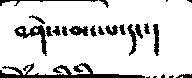བཤེས་མང་པ་དང་།
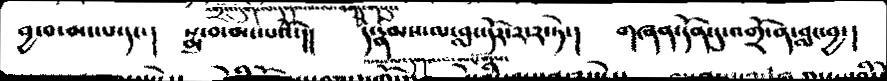བྱ་བ་མང་པ་དང་།  སྨྲ་བ་མང་པའོ་།།  དེ་རྣམས་ལ་བླང་དོར་༢་༢་ཏེ་།   གཞན་དོན་དུ་འགྲོ་ན་བླང་བྱ་།
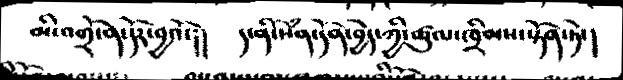མི་འགྲོ་ན་དོར་བྱའོ་།།  ད་ནེ་སེཾན་དོན་བྱེད་ཀྱི་ཚུལ་ཁྲིམས་སྟོན་ཏེ་།
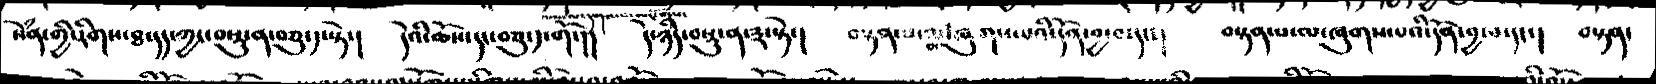སེཾན་གྱི་རིགས་ཐ་དད་ཀྱང་བསྡུ་ན་བཅུ་༡་སྟེ་།   དེའི་ཆོས་དང་བཅུ་༡་གོ་།།   དེ་ཉིད་བསྡུ་ན་༣་སྟེ་།  བསྟན་པ་ལ་ཞུགས་པའི་དོན་བྱ་བ་དང་།  བསྟན་པ་ལ་ཞུགས་པའི་དོན་བྱ་བ་དང་།  བསྟན་
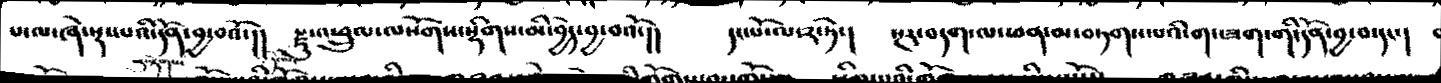པ་ལ་ཞེ་སྡང་པའི་དོན་བྱ་བའོ་།།  རྫུ་འཕྲུལ་ལསོགས་སྡིགས་མི་བྱེད་བྱ་བའོ་།།  དང་པོ་ལ་༢་ཏེ་།  སྔར་བདག་ལ་ཕན་མ་བཏགས་པའི་གང་ཟག་གི་དོན་བྱ་བ་དང་།
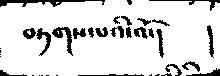བཏགས་པའི་འོ་།     །
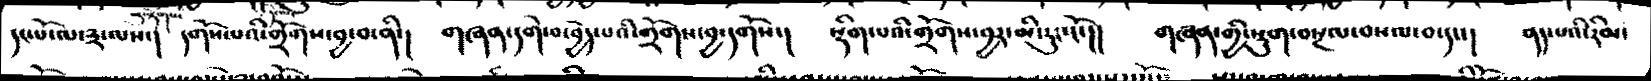དང་པོ་ལ་༣་ལས་།  དགོས་པའི་གྲོགས་བྱ་བ་ནི་།  གཞན་དགེ་་བ་བྱེད་པའི་གྲོགས་བྱ་དགོས་།  སྡིག་པའི་གྲོགས་བྱར་མི་རུང་ངོ་།།  གཞན་གྱི་སྡུག་བསྔལ་བསལ་བ་དང་།  ནད་པའི་རིམ་
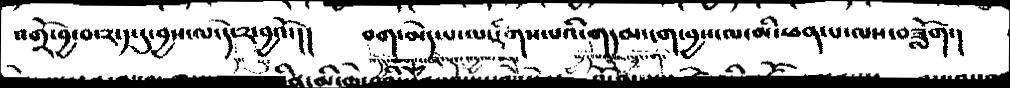འགྲོ་བྱ་བ་༢་༡་དུ་བྱས་ལ་དེ་དང་སུ་༢་བྱའོ་།།  བག་མེད་པ་ལ་རིགས་པའི་གདམ་ངག་བྱས་ལ་མི་ཕན་པ་ལས་བཟློག་།
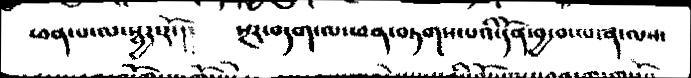ཕན་པ་ལ་སྦྱར་རོ་།།  སྔར་བདག་ལ་ཕན་བཏགས་པའི་དོན་བྱ་བ་ལ་སྣ་ལས་
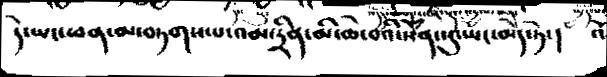དེ་ཡང་ཕན་མ་བཏགས་པ་འམ་དྲིན་མི་ཆེ་བའི་སེཾན་སུ་ཡང་མེད་ཏེ་། འོ་
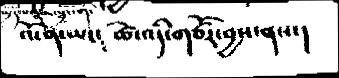འོ་ན་ཡང་།    ཚེ་འདི་གཙོར་བྱས་ནས་
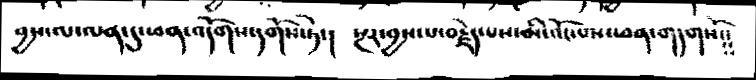བྱས་ལ་ལན་དུ་ཕན་འདོགས་དགོས་ཏེ་།    སྔར་བྱས་པ་བརྗེད་པས་མི་འོང་པས་ཕན་གདགསོ༴༴
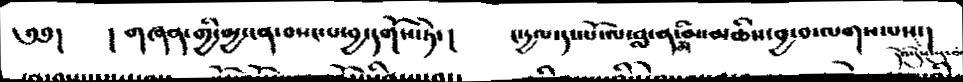༄༅།   ། གཞན་གྱི་མྱ་ངན་བསང་པ་བྱ་དགོས་ཏེ་།  ང་དྱལ་དང་པོ་ལ་བླ་ན་མ་མི་མཆིས་བྱ་བ་ལགས་པས་།
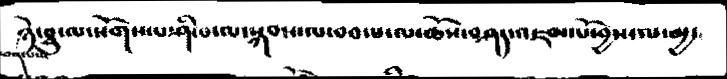ཕན་པས་ཉེ་ཐུ་ལ་སོགས་པ་ཤི་པ་ལ་སྐབས་ལ་བབ་པ་ལ་ཆོས་བཤད་འཇམ་པོ་བྱས་ལ་མྱ་
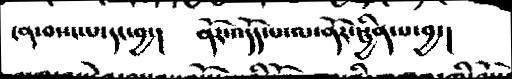ངན་བསང་པ་དང་བྱ་།  ནོར་འདོད་པ་ལ་ནོར་སྦྱིན་པ་བྱ་།
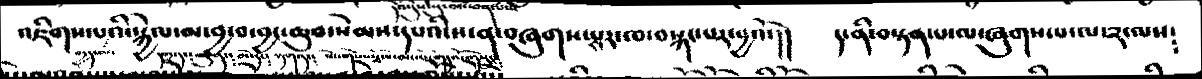འཇིགས་པའི་སྐྱེ་ལ་མ་བྱ་བ་བྱང་ཆུབ་སེམས་དཔའི་ས་ན་བཞུགས་པར་ཁ་བསྐང་པར་བྱའོ་།།  ད་ནི་བསྟན་པ་ལ་ཞུགས་པ་ལ་༢་ལས༴
